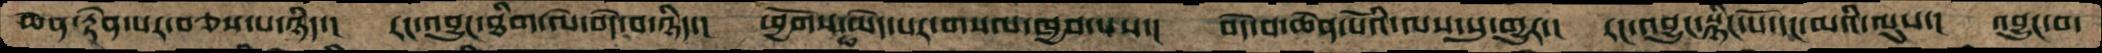ཆན་རྟེན་པར་བཅས་པ་ཉིད་།  རང་འབྱུང་ཐིག་ལེ་བདེ་བ་ཉིད་།  ཕྱོགས་མ་མེད་པར་གསལ་ཁྱབ་པས་།  བདེ་བ་ཆེན་པོའི་ལས་སུ་གྱུར་།  རང་བྱུང་སྙིང་པོ་དང་མའི་ལུས་།  འབྱུང་བ་
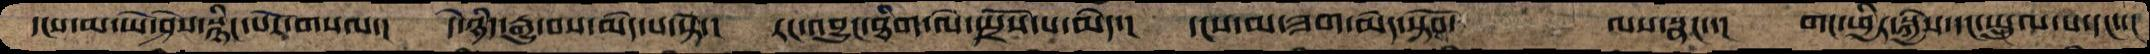དངས་མ་ཡེ་ཤེས་སྙིང་པོར་གསལ་།  དེ་ཉིད་རྒྱུ་བས་མེད་པ་སྟེ་། རང་འབྱུང་ཐིག་ལེ་སྤྲོས་པ་མེད་།  དངས་མ་ཟག་མེད་སྟོབ་   ལས་སྣང་་།  གང་ཕྱིར་སྐྱེས་དང་སྤྲུལ་པ་དང་་།
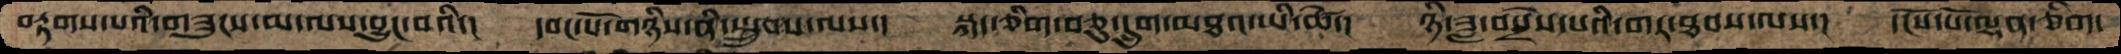བརྟགས་པའི་གཟུངས་མ་ལས་བྱུང་བའི་།  དབང་པོ་གཉིས་ནིསྤྲུབཔ་ལས་།  སྐད་ཅིག་བཅུ་དྲུག་མཐའ་ཡི་ཚེ་།  ཉི་ཟླ་བསྲེས་པའི་གར་ཐབས་ལས་།  དངོས་པོ་ལྡན་ཅིག་
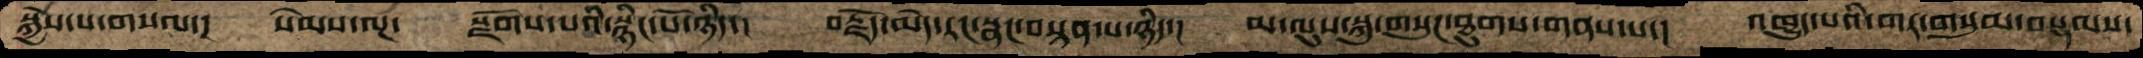སྐྱེས་པ་གསལ་།  སེམས་ལྔ་    སྫོགས་པའི་སྙིང་པོ་ཉིད་།  བརྗོད་མེད་རང་སྣང་བསྟན་པ་ཉིད་།  མ་ལུས་སྐུ་གསུང་ཐུགས་གནས་པ་།  འཁྱུད་པའི་གར་གསུམ་བསྡམས་
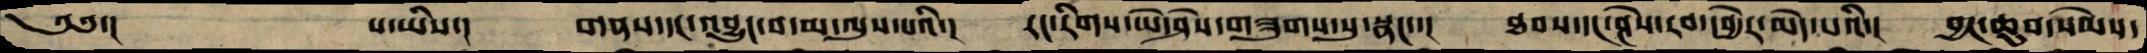༄༅་།         པ་ཡིས་།   གནས་དང་འབྱུང་བ་མ་ལུས་པའི་།  རང་རིགས་ཡེ་ཤེས་གཟུགས་སུ་སྣང་་།  ཐབས་དང་ཤེས་རབ་དབྱེར་མེད་པའི་།  བྱང་ཆུབ་སེམས་
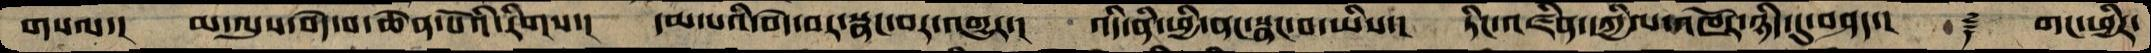གསལ་།  མ་ལུས་བདེ་བ་ཆེན་པོའི་རིགས་།  དམ་པའི་བདེ་བར་སྣང་བར་འགྱུར་།  འདི་ནི་ཕྱི་ནང་སྣང་བ་ཡིས་།  ཏིང་འཛིན་དཀྱིལ་འཁོར་ཉིད་དུ་བཤད་།   ࿑  གང་ཕྱིར་
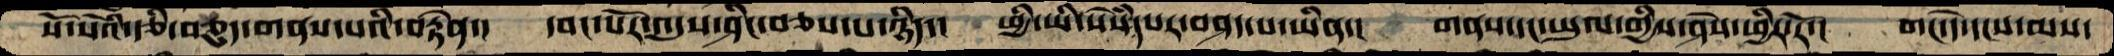སོ་སོའི་རྩི་བཅུད་གནས་པའི་བརྟེན་།  དབང་པོར་འདུས་ཤིང་བཅས་པ་ཉིད་།  ཕྱི་ཡི་སེཾསདཔར་བཤད་པ་ཡིན་།  གནས་དང་ཡུལ་གྱིས་ཤེས་ཕྱིར་རོ་།  གང་དེ་དངས་མས་
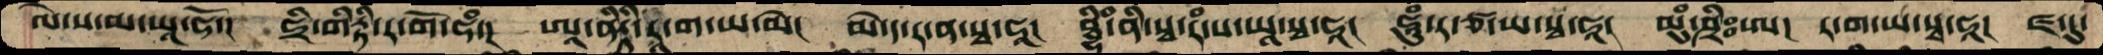ལེ་ས་མ་ཡཱ་ཧོ་།  ཧྲི་གིརྟི་ར་ག་ཧཾ་།  ཨཱ་ནིརྟི་ར་ག་ཡ་མེ།  མེ་ད་ར་ན་སྭ་ཧཱ།  ཐྦྷིཾ་ནི་སྭ་རཾ་ས་ཡ་སྭ་ཧཱ།  ཧཱུཾ་ར་ཙ་ཡ་སྭ་ཧཱ།  མུཾ་ཤྲིཿཨ།  ར་ག་ཡ་སྭ་ཧཱ།  ཛ་དུ་
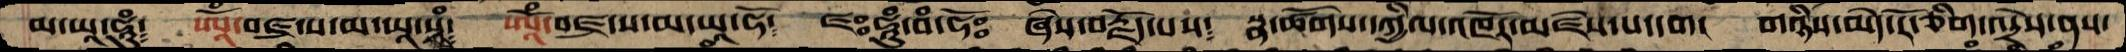མ་ཡཱ་ཧཱུཾ༴  ཨཱོཾ་བཛྲ་ས་མ་ཡཱ་སྟཾ༴  ཨཱོཾ་བཛྲ་ས་མ་ཡཱ་ཧོ༴  ཛཿཧཱུཾ་བཾ་ཧོཿ  ཞེས་བརྗོད་པས་༴  སྣ་ཚོགས་དཀྱིལ་འཁོར་མཛེས་པ་དག།  གཉིས་མེད་རོ་ཅིག་འདྲེས་ནས་
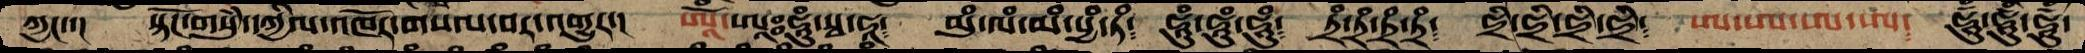ཀྱང་་།  སྟོང་གསུཾ་དཀྱིལ་འཁོར་གསལ་བར་འགྱུར་། ཨཱོཾ་ཨཱཿཧཱུཾ་སྭ་ཧཱ༴  མུཾ་ལཾ་མཾ་པྱཾ་ཏཾ༴ ཧཱུྃ་ཧཱུྃ་ཧཱུྃ༴ ཏྲཾ་ཏྲཾ་ཏྲཾ་ཏྲཾ༴ ཧྲི་ཧྲི་ཧྲི་ཧྲི་༴ ཨ་ཨ་ཨ་ཨ༴ ཧཱུཾ་ཧཱུཾ་ཧཱུཾ་
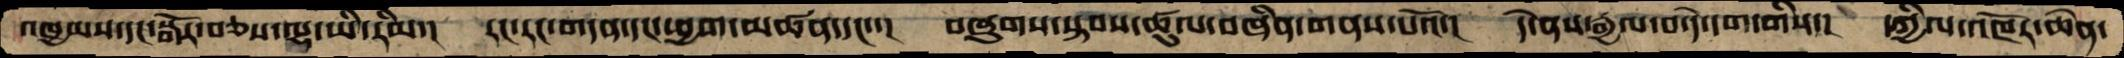འཁྱམས་དང་སྒོར་བཅས་ལྷ་ཡི་རིམ་།  རང་རང་གདན་དང་ཕྱག་མཚན་དང་་།  བཞུགས་སྟབས་ཚུལ་བཞིན་གནས་པའོ་།  དེ་ནས་རྒྱལ་བ་དེ་དག་གིས་།  དཀྱིལ་འཁོར་ཆེན་
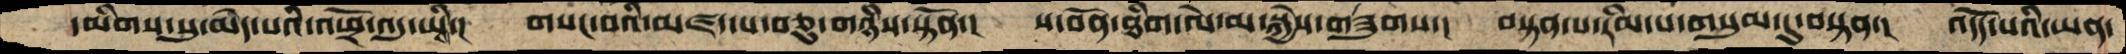དམིགས་སུ་མེད་པའི་འཕྲོ་འདུ་ཡིས་།  གསང་བའི་མཛད་པ་བཅུ་གཉིས་སྟོན་།  ས་བོན་ཐིག་ལེ་མ་སྐྱེས་གཟུགས་། བསྟན་པ་རིམ་པ་གསུམ་དུ་བསྟན་། འདོད་པའི་ཡན་
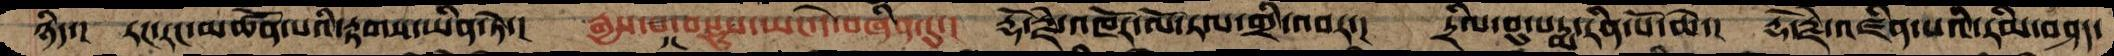ཉིད་།   རང་རང་མཚོན་པའི་རྟགས་ཡིན་ཏེ་།  རྒྱས་དང་བསྡུས་ཡང་དེ་བཞིན་དུ་། རྡོ་རྗེ་འཁོར་ལོ་རལ་གྲི་འབར་།  དྲིལ་བུ་པདྨ་རིན་པོ་ཆེ་། རྡོ་རྗེ་འཛིན་པའི་རིམ་བཤད་
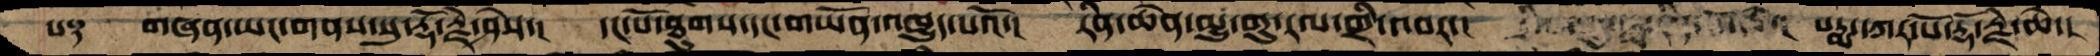པ༑ གཞན་ཡང་གནས་སུ་རྡོ་རྗེ་ཤེས་། དང་པོ་ཐུགས་དང་གཡོན་འཁྱུད་པའོ་།  རིན་ཆེན་མྱུ་གུ་རལ་གྲི་འབར་།   པདྨ་དཀར་པོ་རྡོ་རྗེ་ཆེ་།
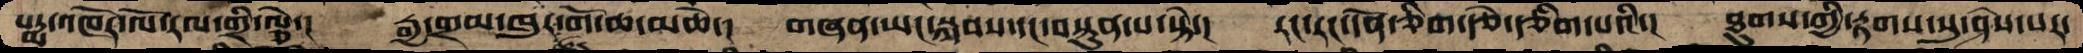པདྨ་འཁོར་ལོ་རལ་གྲི་ལྕེ་།  རྒྱ་གྲམ་ཁུར་ཚུརགོ་ཆ་མཆེ་། གཞན་ཡང་སྐབས་དང་བསྟུན་པ་སྟེ་།  རང་རང་དོན་ཅིག་རྩེ་རྩིག་པའི་།  ཐུགས་ཀྱི་རྟགས་སུ་ཤེས་པར་
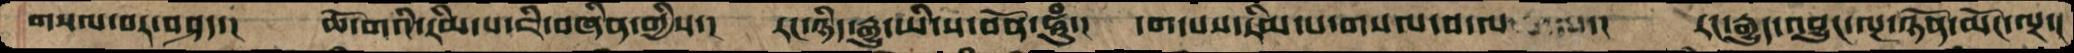གསལ་བར་བཤད་།  ཆོ་གའི་རིམ་པ་ཇི་བཞིན་གྱིས་། རང་ཉིད་རྒྱུ་ཡི་ས་བོན་ཧཱུཾ་། དག་པས་རིམ་པ་གསལ་བ་ལ་།  རང་རྒྱུད་འབྱུང་ལྔ་ཉོན་མོང་ལྔ་།
